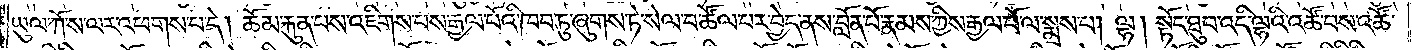ཡུལ་ཀོ་ས་ལར་འཕགས་པ་དེ། ཆོམ་རྐུན་པས་འཇིགས་པས་རྒྱལ་པོའི་ཁབ་ཏུ་ཞུགས་ཏེ་སེལ་བ་ཚོལ་པར་བྱེད་ནས་བློན་པོ་རྣམས་ཀྱིས་རྒྱལ་པོ་ལ་སྨྲས་པ། ལྷ། སྟོང་ཐུབ་འདི་ལྷའི་འཚོ་བས་འཚོ་
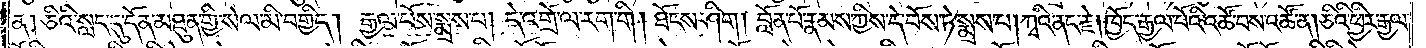ན། ཅིའི་སླད་དུ་དོན་མཐུན་གྱི་སེལ་མི་བགྱིད། རྒྱལ་པོས་སྨྲས་པ། དེ་འགྲོ་ལ་རག་གི། ཐོངས་ཤིག། བློན་པོ་རྣམས་ཀྱིས་དེ་བོས་ཏེ་སྨྲས་པ། ཀྭའི་ནང་རྗེ། ཁྱོད་རྒྱལ་པོའི་འཚོ་བས་འཚོ་ན། ཅིའི་ཕྱིར་རྒྱལ་
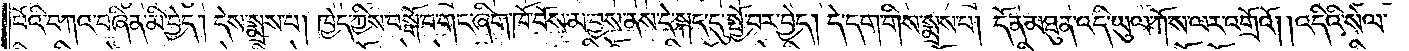པོའི་བཀའ་བཞིན་མི་བྱེད། དེས་སྨྲས་པ། ཁྱེད་ཀྱིས་བསྒོ་བ་གང་ཞིག་ཁོ་བོས་མ་བྱས་ནས་དེ་སྐད་དུ་སྤྱོ་བར་བྱེད། དེ་དག་གིས་སྨྲས་པ། དོན་མཐུན་འདི་ཡུལ་ཀོ་ས་ལར་འགྲོའོ། །འདིའི་སེལ་
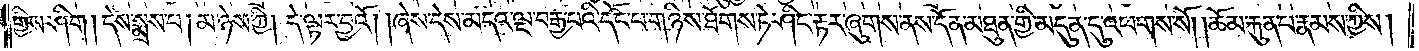གྱིས་ཤིག། དེས་སྨྲས་པ། མ་ཉེས་ཀྱི། དེ་ལྟར་བྱའོ། །ཞེས་དེས་མདའ་ལྔ་བརྒྱ་པའི་དོང་པ་གཉིས་ཐོགས་ཏེ་ཤིང་རྟར་ཞུགས་ནས་དོན་མཐུན་གྱི་མདུན་དུ་འཕགས་སོ། །ཆོམ་རྐུན་པ་རྣམས་ཀྱིས།
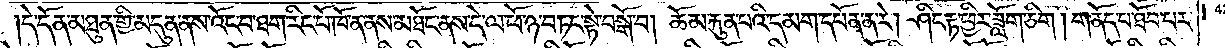།དེ་དོན་མཐུན་གྱི་མདུན་ནས་འོང་བ་ཐག་རིང་པོ་ཁོ་ན་ནས་མཐོང་ནས་དེ་ལ་ཕོ་ཉ་བཏང་སྟེ་བསྒོ་བ། ཆོམ་རྐུན་པའི་དམག་དཔོན་ན་རེ། ཤིང་རྟ་ཕྱིར་ཟློག་ཅིག །གནོད་པ་ཐོབ་པར་
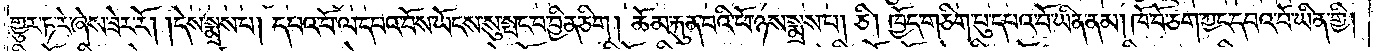གྱུར་ཏ་རེ་ཞེས་ཟེར་རོ། །དེས་སྨྲས་པ། དཔའ་བོ་ལ་དཔའ་བོས་ཡོངས་སུ་སྤང་བ་བྱིན་ཅིག །ཆོམ་རྐུན་པའི་ཕོ་ཉས་སྨྲས་པ། ཅི། ཁྱོད་གཅིག་པུ་དཔའ་བོ་ཡིན་ནམ། ཁོ་བོ་ཅག་ཀྱང་དཔའ་བོ་ཡིན་གྱི།
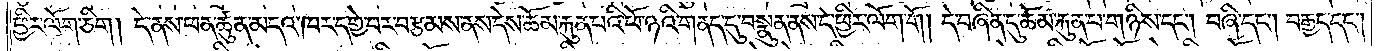ཕྱིར་ལོག་ཅིག། དེ་ནས་ཕན་ཚུན་མདའ་ཁར་དགྱེ་བར་བརྩམས་ནས་དེས་ཆོམ་རྐུན་པའི་ཕོ་ཉའི་གནད་དུ་བསྣུན་ནས་དེ་ཕྱིར་ལོག་གོ། དེ་བཞིན་དུ་ཆོམ་རྐུན་པ་གཉིས་དང༌། བཞི་དང༌། བརྒྱད་དང༌།
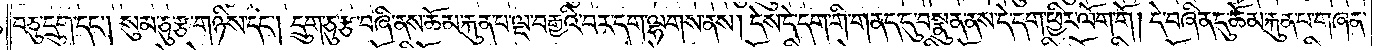བཅུ་དྲུག་དང༌། སུམ་ཅུ་རྩ་གཉིས་དང༌། དྲུག་ཅུ་རྩ་བཞི་ནས་ཆོམ་རྐུན་པ་ལྔ་བརྒྱའི་བར་དག་ལྷགས་ནས། དེས་དེ་དག་གི་གནད་དུ་བསྣུན་ནས་དེ་དག་ཕྱིར་ལོག་གོ། དེ་བཞིན་དུ་ཆོམ་རྐུན་པ་གཞན་
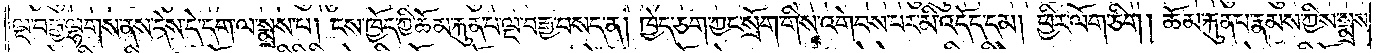ལྔ་བརྒྱ་ལྷགས་ནས་དེས་དེ་དག་ལ་སྨྲས་པ། ངས་ཁྱོད་ཀྱི་ཆོམ་རྐུན་པ་ལྔ་བརྒྱ་བསད་ན། ཁྱེད་ཅག་ཀྱང་སྲོག་གིས་འགེབས་པར་མི་འདོད་དམ། ཕྱིར་ལོག་ཅིག །ཆོམ་རྐུན་པ་རྣམས་ཀྱིས་སྨྲས་
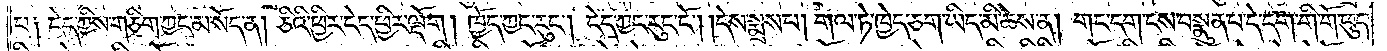པ༑ ངེད་ཀྱིས་གཅིག་ཀྱང་མ་སོད་ན། ཅིའི་ཕྱིར་ངེད་ཕྱིར་ལྡོག །ཁྱོད་ཀྱང་རུང༌། ངེད་ཀྱང་རུང་ངོ༌། །དེས་སྨྲས་པ། གལ་ཏེ་ཁྱེད་ཅག་ཡིད་མི་ཆེས་ན། གང་དག་ངས་བསྣུན་པ་དེ་དག་གི་གོ་ཕུད་
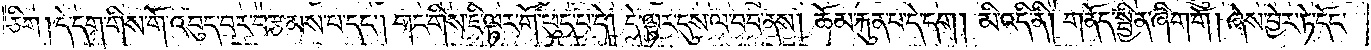ཅིག །དེ་དག་གིས་གོ་འབུད་པར་བརྩམས་པ་དང༌། གང་གིས་ཇི་ལྟར་གོ་ཕུད་པ་དེ། དེ་ལྟར་དུས་ལ་བབ་ནས། ཆོམ་རྐུན་པ་དེ་དག། མི་འདི་ནི། གནོད་སྦྱིན་ཞིག་གོ། ཞེས་བྱེར་ཏེ་དོང་
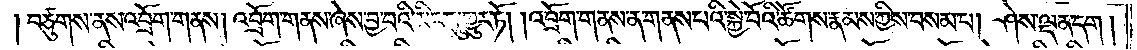།བཙུགས་ནས་འབྲོག་གནས། འབྲོག་གནས་ཞེས་བྱ་བའི་མིང་དུ་གྱུར་ཏོ། །འབྲོག་གནས་ན་གནས་པའི་སྐྱེ་བོའི་ཚོགས་རྣམས་ཀྱིས་བསམ་པ། ཤེས་ལྡན་དག །
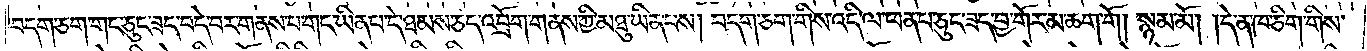བདག་ཅག་གང་ཅུང་ཟད་བདེ་བར་གནས་པ་གང་ཡིན་པ་དེ་ཐམས་ཅད་འབྲོག་གནས་ཀྱི་མཐུ་ཡིན་པས། བདག་ཅག་གིས་འདི་ལ་ཕན་པ་ཅུང་ཟད་བྱ་གོར་མ་ཆག་གོ། སྙམ་མོ། །དེ་ན་ཁ་ཅིག་གིས་
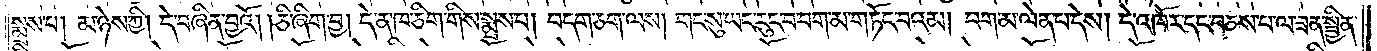སྨྲས་པ། མ་ཉེས་ཀྱི། དེ་བཞིན་བྱའོ། །ཅི་ཞིག་བྱ། དེ་ན་ཁ་ཅིག་གིས་སྨྲས་པ། བདག་ཅག་ལས། གང་སུ་ཡང་རུང་བ་བག་མ་གཏོང་བའམ། བག་མ་ལེན་པ་དེས། དེ་འཁོར་དང་བཅས་པ་ལ་ཟན་སྦྱིན་
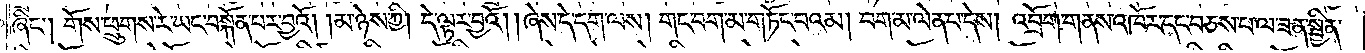ཞིང༌། གོས་ཕྲུགས་རེ་ཡང་བསྐོན་པར་བྱའོ། །མ་ཉེས་ཀྱི། དེ་ལྟར་བྱའོ། །ཞེས་དེ་དག་ལས། གང་བག་མ་གཏོང་བའམ། བག་མ་ལེན་པ་དེས། འབྲོག་གནས་འཁོར་དང་བཅས་པ་ལ་ཟན་སྦྱིན་
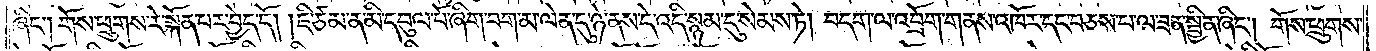ཞིང༌། གོས་ཕྲུགས་རེ་སྐོན་པར་བྱེད་དོ། །ཇི་ཙམ་ན་མི་དབུལ་པོ་ཞིག་བག་མ་ལེན་དུ་ཉེ་ནས་དེ་འདི་སྙམ་དུ་སེམས་ཏེ། བདག་ལ་འབྲོག་གནས་འཁོར་དང་བཅས་པ་ལ་ཟན་སྦྱིན་ཞིང༌། གོས་ཕྲུགས་
